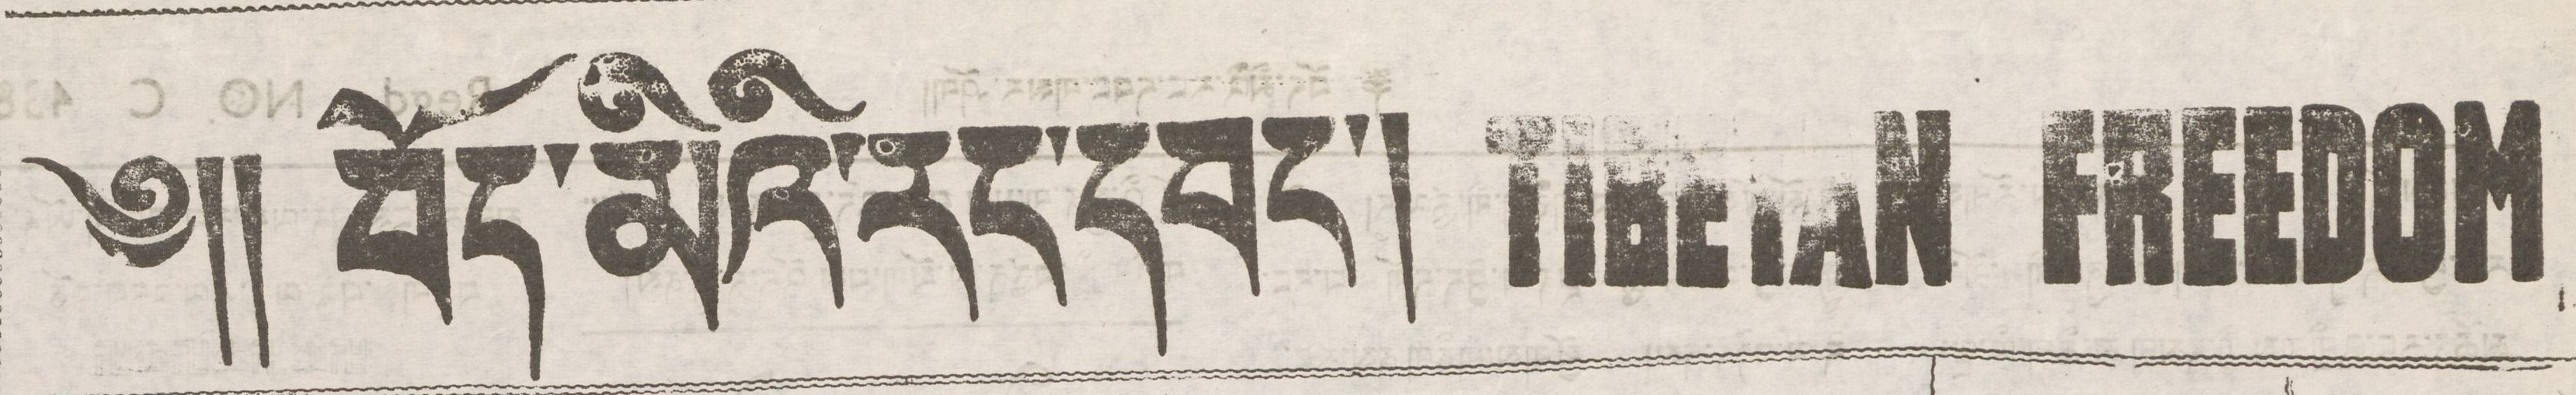༄།། བོད་མིའི་རང་དབང་། TIBETAN FREEDOM
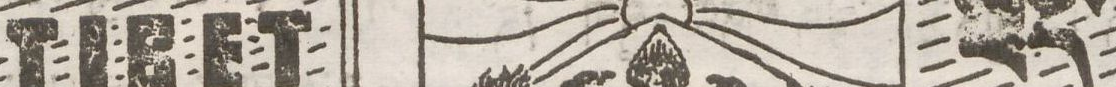TIBET བོད་
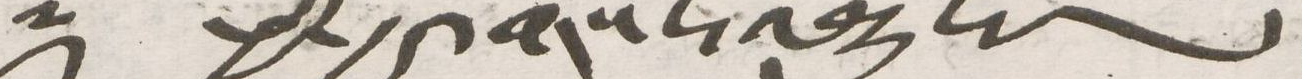༈ ཕྱི་རྒྱལ་གསར་འགྱུར།
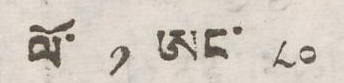ལོ་ ༡ ཨང་ ༨༠
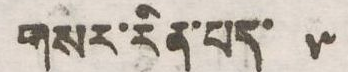གསར་རིན་པད་ ༥
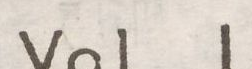Vol 1
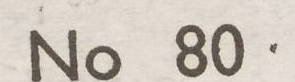No 80
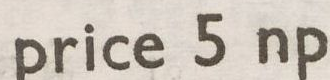price 5 np
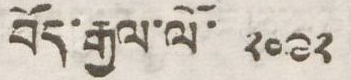བོད་རྒྱལ་ལོ་ ༢༠༩༢
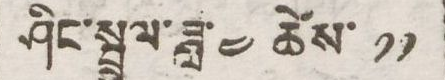ཤིང་སྤྲུལ་ཟླ་ ༤ ཚེས་ ༡༡
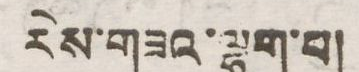རེས་གཟའ་ལྷག་པ།
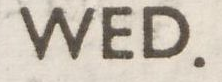WED
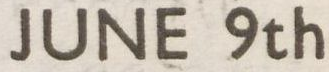JUNE 9th
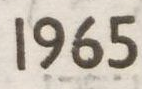1965
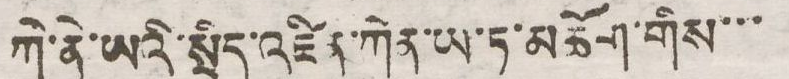ཀེ་ནེ་ཡའི་སྲིད་འཛིན་ཀེན་ཡ་ཏ་མཆོག་གིས་་་
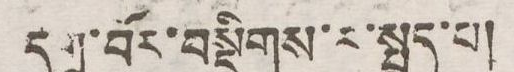དགྲ་བོར་བསྡིགས་ར་སྤྲད་པ།
